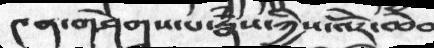༤ན་གཤེགས་པ་རྣཾས་ཀྱིས་འོེར་ཆེན
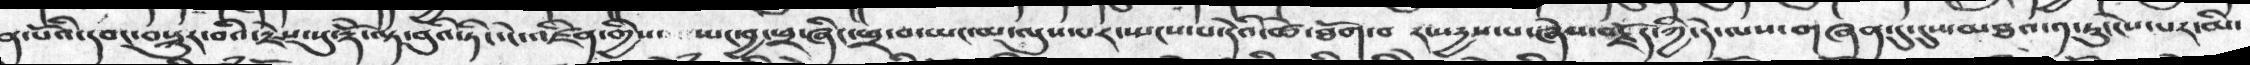ན་པོའི་དབང་བསྐུར་བའི་རྗེས་སུ་རྡོེ་ལྟ་བུའི་ཏིང་ངེ་འཛིན་གྱིས་   སྤང་བྱ་ཕྲ་ཞིང་ཕྲ་བ་ཡང་མ་ལུས་པར་སྤངས་དེའི་ཚེ་ཐོག་བ་རང་རྱས་པ་ཞེས་བརྗོད་ཀྱི་དེ་ལས་གཞན་དུ་དུས་མཐའ་༡་ཏུ་ངེས་པར་མི་
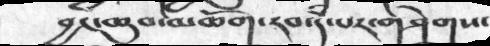བྱང་ཆུབ་མཆོག་རབ་དཾ་པར་གཤེགས་
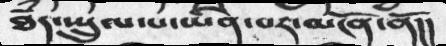ཐཾད་སྤྲུལ་པ་ཡིན་པར་མངོན་ནོ།།
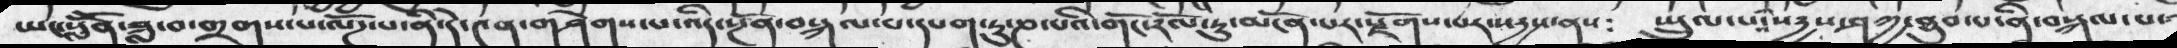ཡང་སློོན་ཟླ་བ་གྲགས་པ་ལོཌ་པ་ནི་དེ་༤ན་གཤེགས་པ་འདི་སྔོན་བསྐལ་པ་དཔག་ཏུ་ཎ་པའི་གོང་རོལ་ཏུ་མངོན་པར་རྗོགས་པར་སངརྱས་ནས་  ཡྲུལ་པའི་སརྱས་ཤཀྱ་ཐུབ་པ་ནི་བསྐལ་པ་
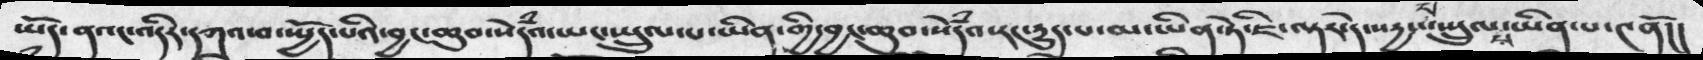ཡོད་ནའང་འདིར་དཀའ་བ་ཡྱོད་པའི་བྱང་ཆུབ་སེཾདའ་ཡང་ཡྲུལ་པ་ཡིན་གྱི་བྱང་ཆུབ་སེཾདའ་རང་རྱུད་པ་མ་ཡིན་ཏེ་ཇི་ལྟར་དེ་སརྱས་པ་ཡྲུལ་པ་ཡིན་པ་༤ནོ།།
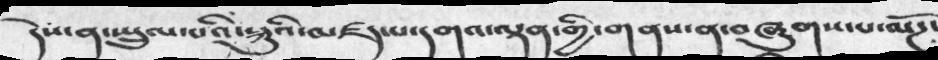དེས་ན་སྤྲུལ་པའི་སྐུའི་མཛད་པ་དགའ་ལྡན་གྱི་གནས་ན་བཞུགས་པ་ལོཌ་
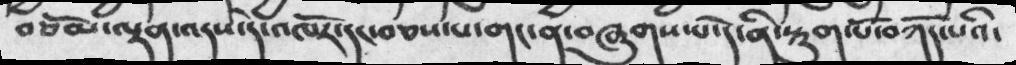བཅོམ་ལྡན་འདས་དེ་འཁོར་དང་བཅས་པ་གང་ན་བཞུགས་པ་དེ་ནི་སྟུག་པོ་བཀོད་པའི་
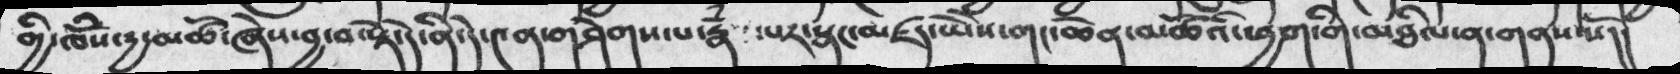གྱི་ཁོཾས་རྱ་མཚོ་ཞེས་བྱ་བ་སྟེ་དེ་ནི་དེ་༤ན་གཤེགས་པ་རྣཾས་པར་སྣང་མཛད་ཡེེས་གང་ཆེན་མཚོའི་ཕྱག་གི་མཐིལ་ན་གནས་སོ།།
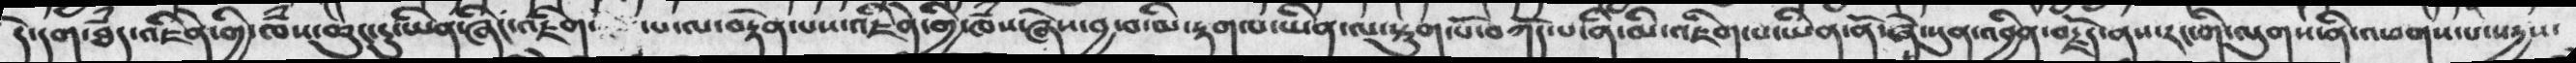དེ་དག་ཐཾད་འཇིེན་གྱི་ཁཾས་ཆུང་ངུ་ཡིན་ཞིང་འཇིག་པ་ལ་བརྟེན་པས་འཇིེན་གྱི་ཁཾས་ཞེས་བྱ་བ་མི་རྟག་པ་ཡིན་པ་སྟུག་པོ་བཀོད་པ་ནི་འཇིག་པ་ཡིན་ནོ་ཞེས་སུན་འབྱིན་བརྗོད་ནས་རང་གི་ལུགས་ནི་འཕགས་པ་སརྱས་
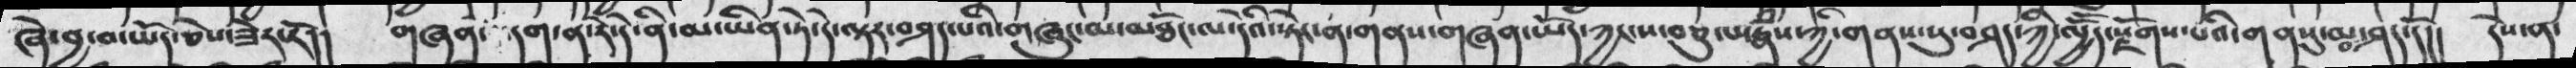ཞེ་བྱ་བ་ཡོད་ཅེས་ཟེར་རོ།།  གཞན་དག་ན་རེ་དེ་ནི་མ་ཡིན་ཏེ་དེ་ལྟར་བཤད་བའི་གཞུང་མ་མཐོང་ལ་དེའི་སྟེང་ན་གནས་གཞན་ཡོད་ཀྱང་ས་བཅུ་པ་རྣཾས་ཀྱི་གནས་སུ་བཤད་ཀྱི་ལྱོོད་པའི་གནསུ་མ་བཤད་དོ།།  དེས་ན་
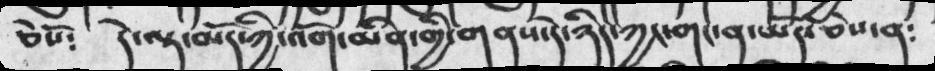ཅེསོ༴  དེ་ལྟར་མོད་ཀྱི་འོག་མིན་གྱི་གནས་དེ་ཉིད་ཀྱང་གང་ན་ཡོད་ཅེས་ན༴
